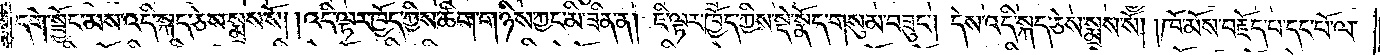དགེ་སྦྱོང་མས་འདི་སྐད་ཅེས་སྨྲས་སོ། །འདི་ལྟར་ཁྱོད་ཀྱིས་ཚིག་གཉིས་ཀྱང་མི་ཟིན་ན། ཇི་ལྟར་ཁྱོད་ཀྱིས་སྡེ་སྣོད་གསུམ་བཟུང༌། དེས་འདི་སྐད་ཅེས་སྨྲས་སོ། །ཁོ་མོས་བརྗོད་པ་དང་པོ་ལ་
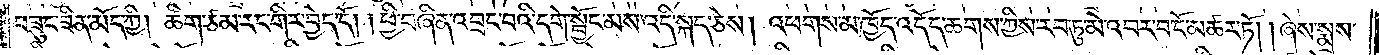བཟུང་ཟིན་མོད་ཀྱི། ཚིག་ཙམ་རང་གིར་བྱེད་དོ། །ཕྱི་བཞིན་འབྲང་བའི་དགེ་སྦྱོང་མས་འདི་སྐད་ཅེས། འཕགས་མ་ཁྱོད་འདོད་ཆགས་ཀྱིས་རབ་ཏུ་མེ་འབར་བ་ངོ་མཚར་ཏོ། །ཞེས་སྨྲས་
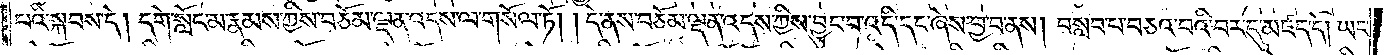པའི་སྐབས་དེ། དགེ་སློང་མ་རྣམས་ཀྱིས་བཅོམ་ལྡན་འདས་ལ་གསོལ་ཏོ། །དེ་ནས་བཅོམ་ལྡན་འདས་ཀྱིས་བྱུང་བ་འདི་དང་ཞེས་བྱ་བ་ནས། བསླབ་པ་བཅའ་བའི་བར་དུ་མཛད་དེ། ཡང་
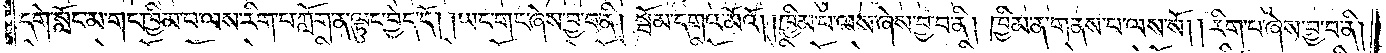དགེ་སློང་མ་གང་ཁྱིམ་པ་ལས་རིག་པ་ཀློག་ན་ལྟུང་བྱེད་དོ། །ཡང་གང་ཞེས་བྱ་བ་ནི། སྦོམ་དགའ་མོའོ། །ཁྱིམ་པ་ལས་ཞེས་བྱ་བ་ནི། ཁྱིམ་ན་གནས་པ་ལས་སོ། །རིག་པ་ཞེས་བྱ་བ་ནི།
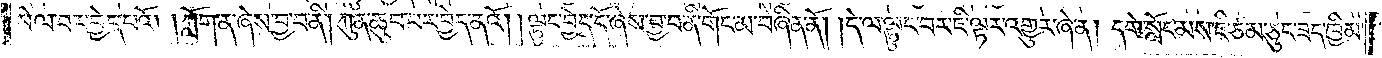སེལ་བར་བྱེད་པའོ། །ཀློག་ན་ཞེས་བྱ་བ་ནི། ཀུན་ཆུབ་པར་བྱེད་ནའོ། །ལྟུང་བྱེད་དོ་ཞེས་བྱ་བ་ནི་གོང་མ་བཞིན་ནོ། །དེ་ལ་ལྟུང་བར་ཇི་ལྟར་འགྱུར་ཞེ་ན། དགེ་སློང་མས་ཇི་ཙམ་ཅུང་ཟད་ཁྱིམ་
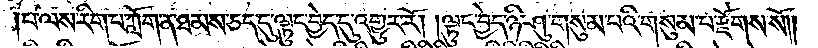།པ་ལས་རིག་པ་ཀློག་ན་ཐམས་ཅད་དུ་ལྟུང་བྱེད་དུ་འགྱུར་རོ། །ལྟུང་བྱེད་ཉི་ཤུ་གསུམ་པའི་གསུམ་པ་རྫོགས་སོ༎
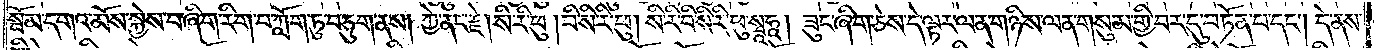སྦོམ་དགའ་མོས་སྐྱེས་བ་ཞིག་རིག་པ་ཀློག་ཏུ་བཅུག་ནས། ཀྱེ་ནང་རྗེ། སི་རི་ཕུ། བི་སི་རི་ཕུ། སི་རི་བི་སི་རི་ཕུ་སྭཱཧཱ། ཟུང་ཞིག་ཅེས་དེ་ལྟར་ལན་གཉིས་ལན་གསུམ་གྱི་བར་དུ་བཏོན་པ་དང༌། དེ་ནས་
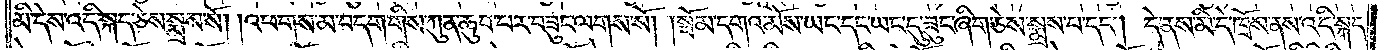མི་དེས་འདི་སྐད་ཅེས་སྨྲས་སོ། །འཕགས་མ་བདག་གིས་ཀུན་ཆུབ་བར་བཟུང་ལགས་སོ། །སྦོམ་དགའ་མོས་ཡང་དང་ཡང་དུ་ཟུང་ཞིག་ཅེས་སྨྲས་པ་དང༌། དེ་ནས་མི་དེ་ཁྲོས་ནས་འདི་སྐད་
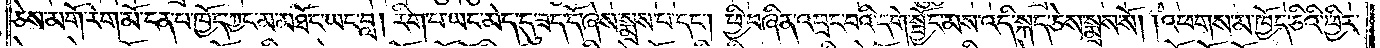ཅེས་མགོ་རེག་མོ་ངན་པ་ཁྱོད་ཀྱང་མ་མཐོང་ཡང་བླ། རིག་པ་ཡང་མེད་དུ་ཟད་དོ་ཞེས་སྨྲས་པ་དང༌། ཕྱི་བཞིན་འབྲང་བའི་དགེ་སྦྱོང་མས་འདི་སྐད་ཅེས་སྨྲས་སོ། །འཕགས་མ་ཁྱོད་ཅིའི་ཕྱིར་
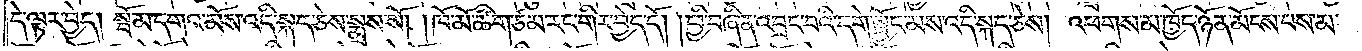དེ་ལྟར་བྱེད། སྦོམ་དགའ་མོས་འདི་སྐད་ཅེས་སྨྲས་སོ། །ཁོ་མོ་ཚིག་ཙམ་རང་གིར་བྱེད་དོ། །ཕྱི་བཞིན་འབྲང་བའི་དགེ་སྦྱོང་མས་འདི་སྐད་ཅེས། འཕགས་མ་ཁྱོད་ཉོན་མོངས་པས་མ་
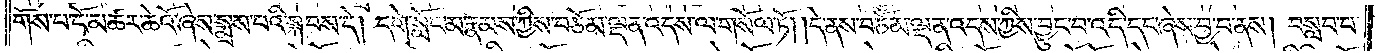གོས་པ་ངོ་མཚར་ཆེའོ་ཞེས་སྨྲས་པའི་སྐབས་དེ། དགེ་སློང་མ་རྣམས་ཀྱིས་བཅོམ་ལྡན་འདས་ལ་གསོལ་ཏོ། །དེ་ནས་བཅོམ་ལྡན་འདས་ཀྱིས་བྱུང་བ་འདི་དང་ཞེས་བྱ་བ་ནས། བསླབ་པ་
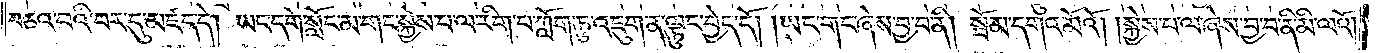བཅའ་བའི་བར་དུ་མཛད་དེ། ཡང་དགེ་སློང་མ་གང་སྐྱེས་པ་ལ་རིག་པ་ཀློག་ཏུ་འཇུག་ན་ལྟུང་བྱེད་དོ། །ཡང་གང་ཞེས་བྱ་བ་ནི། སྦོམ་དགའ་མོའོ། །སྐྱེས་པ་ལ་ཞེས་བྱ་བ་ནི་མི་ལའོ༎
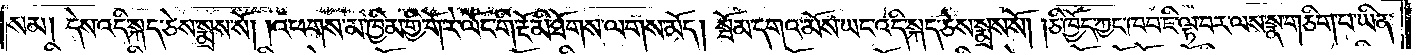སམ། དེས་འདི་སྐད་ཅེས་སྨྲས་སོ། །འཕགས་མ་ཁྱིམ་གྱི་གོ་རེ་ལོང་གི་རྔོ་མི་ཐོགས་ལགས་མོད། སྦོམ་དགའ་མོས་ཡང་འདི་སྐད་ཅེས་སྨྲས་སོ། །ཅི་ཁྱོད་ཀྱང་ཁབ་ཇི་ལྟ་བར་ལས་སྣ་གཅིག་པ་ཡིན་
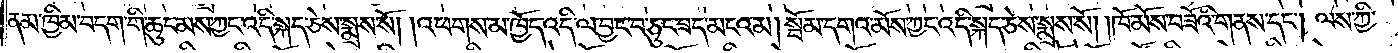ནམ་ཁྱིམ་བདག་གི་ཆུང་མས་ཀྱང་འདི་སྐད་ཅེས་སྨྲས་སོ། །འཕགས་མ་ཁྱོད་འདི་ལ་བྱང་བ་ཅུང་ཟད་མངའམ། སྦོམ་དགའ་མོས་ཀྱང་འདི་སྐད་ཅེས་སྨྲས་སོ། །ཁོ་མོས་བཟོའི་གནས་དང༌། ལས་ཀྱི་
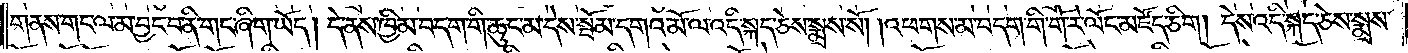གནས་གང་ལ་མ་བྱང་བ་ནི་གང་ཞིག་ཡོད། དེ་ནས་ཁྱིམ་བདག་གི་ཆུང་མ་དེས་སྦོམ་དགའ་མོ་ལ་འདི་སྐད་ཅེས་སྨྲས་སོ། །འཕགས་མ་བདག་གི་གོ་རེ་ལོང་མཛོད་ཅིག། དེས་འདི་སྐད་ཅེས་སྨྲས་
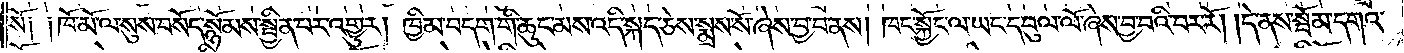སོ༑ ༑ཁོ་མོ་ལ་སུས་བསོད་སྙོམས་སྦྱིན་པར་འགྱུར། ཁྱིམ་བདག་གི་ཆུང་མས་འདི་སྐད་ཅེས་སྨྲས་སོ་ཞེས་བྱ་བ་ནས། ཁང་སྐྱོང་ལ་ཡང་དབུལ་ལོ་ཞེས་བྱ་བའི་བར་རོ། །དེ་ནས་སྦོམ་དགའ་
